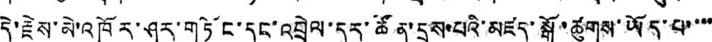དེ་རྗེས་མེ་འཁོར་ཤར་གཏོང་དང་འབྲེལ་དར་ཚོན་དྲས་པའི་མཛད་སྒོ་ཚུགས་ཡོད་པ་་་་
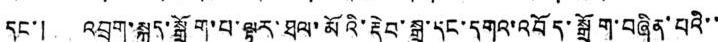དང་། འབྲུག་སྐད་སྒྲོག་པ་ལྟར་ཐལ་མོའི་རྡེབ་སྒྲ་དང་དགའ་འབོད་སྒྲོག་བཞིན་པའི་་
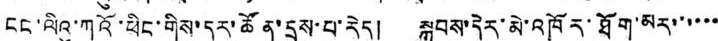ངང་ལིའུ་ཀའོ་ཕིང་གིས་དར་ཚོན་དྲས་པ་རེད། སྐབས་དེར་མེ་འཁོར་ཐོག་མར་་་་་་
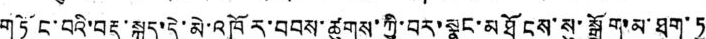གཏོང་བའི་བརྡ་སྐད་དེ་མེ་འཁོར་བབས་ཚུགས་ཀྱི་བར་སྣང་མཐོངས་སུ་སྒྲོག་མ་ཐག་ཏུ་
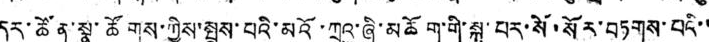དར་ཚོན་སྣ་ཚོགས་ཀྱིས་སྤྲས་པའི་མའོ་ཀྲུའུ་ཞི་མཆོག་གི་སྐུ་པར་སོ་སོར་བཏགས་པའི་་
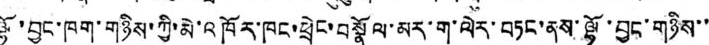ལྷོ་བྱང་ཁག་གཉིས་ཀྱི་མེ་འཁོར་ཁང་ཕྲེང་བསྣོལ་མར་ག་ལེར་བཏང་ནས་ལྷོ་བྱང་གཉིས་་
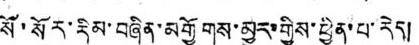སོ་སོར་རིམ་བཞིན་མགྱོགས་མྱུར་གྱིས་ཕྱིན་པ་རེད།
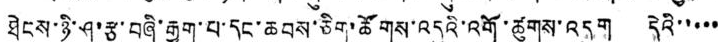ཐེངས་ཉི་ཤུ་རྩ་བཞི་རྒྱག་པ་དང་ཆབས་ཅིག་ཚོགས་འདུའི་འགོ་ཚུགས་འདུག དེའི་་་་་
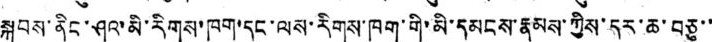སྐབས་ནིང་ཤའ་མི་རིགས་ཁག་དང་ལས་རིགས་ཁག་གི་མི་དམངས་རྣམས་ཀྱིས་དར་ཆ་བཅུ་་
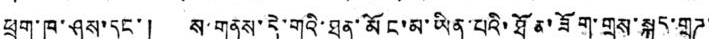ཕྲག་ཁག་ཤས་དང་། ས་གནས་དེ་གའི་ཐུན་མོང་མ་ཡིན་པའི་ཐོན་ཟོག་གྲས་སྐད་གྲཊ་
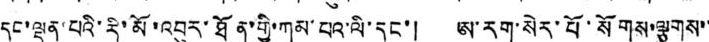དང་ལྡན་པའི་རི་མོ་འབུར་ཐོན་གྱི་ཀམ་པའ་ལི་དང་། ཨ་རག་སེར་པོ་སོགས་ལྕགས་་
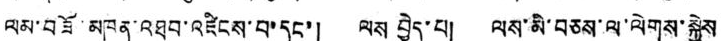ལམ་བཟོ་མཁན་འཐབ་འཛིངས་པ་དང་། ལས བྱེད་པ། ལས་མི་བཅས་ལ་ལེགས་སྐྱེས
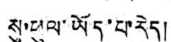སུ་ཕུལ་ཡོད་པ་རེད།
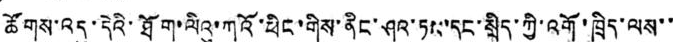ཚོགས་འདུ་དེའི་ཐོག་ལིའུ་ཀའོ་ཕིང་གིས་ནིང་ཤའ་ཏང་དང་སྲིད་ཀྱི་འགོ་ཁྲིད་ལས་་
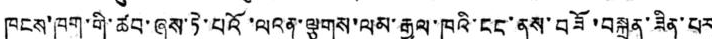ཁུངས་ཁག་གི་ཚབ་ཞུས་ཏེ་པའོ་ལའན་ལྕགས་ལམ་རྒྱལ་ཁའི་ངང་ནས་བཟོ་བསྐྲུན་ཟིན་པར
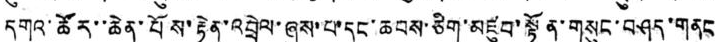དགའ་ཚོར་་ཆེན་པོས་རྟེན་འབྲེལ་ཞུས་པ་དང་ཆབས་ཅིག་མཛུབ་སྟོན་གསུང་བཤད་གནང
